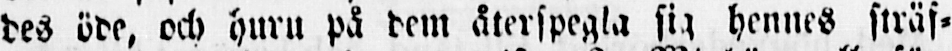des öde, och huru på dem återspegla sig hennes sträf-
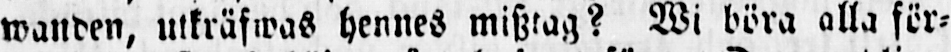wanden, utkräfwas hennes misztag? Wi böra alla för-
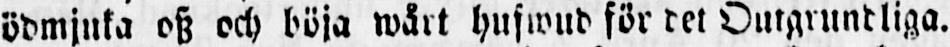ödmjuka osz och böja wårt hufwud för det Outgrundliga.
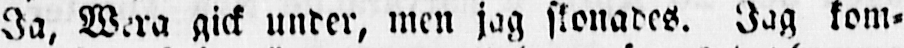Ja, Wera gick under, men jag skonades. Jag kom-
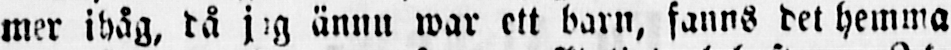mer ihåg, då jag ännu war ett barn, fanns det hemma
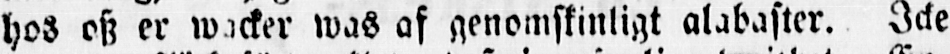hos osz er wacker was af genomskinligt alabaster. Icke
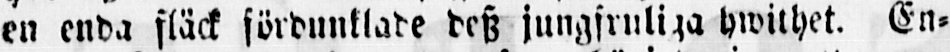en enda fläck fördunklade desz jungfruliga hwithet. En-
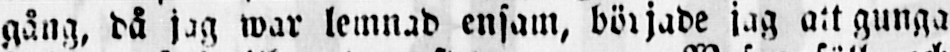gång, då jag war lemnad ensam, började jag att gunga
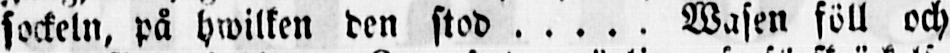sockeln, på hwilken den stod ..... Wasen föll och
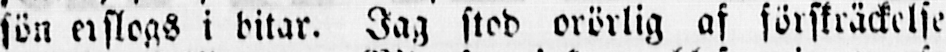sön erslogs i bitar. Jag stod orörlig af förskräckelse
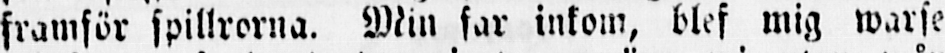framför spillrorna. Min far inkom, blef mig warse
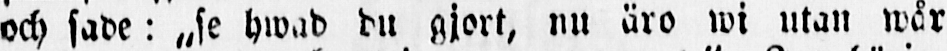och sade: „se hwad du gjort, nu äro wi utan wår
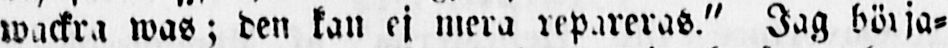wackra was; den kan ej mera repareras." Jag börja-
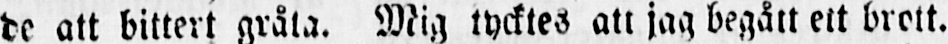de att bittert gråta. Mig tycktes att jag begått ett brott.
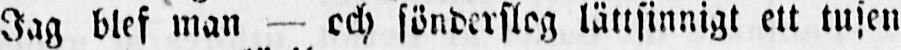Jag blef man - och sönderslog lättsinnigt ett tusen
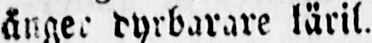ånger dyrbarare käril.
